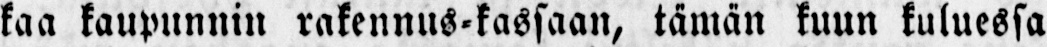kaa kaupunnin rakennus-kassaan, tämän kuun kuluessa
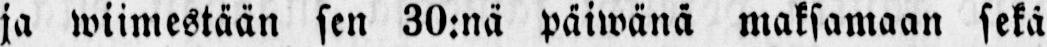ja wiimestään sen 30.nä päiwänä maksamaan sekä
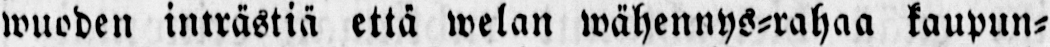wuoden inträstiä että welan wähennys-rahaa kaupun-
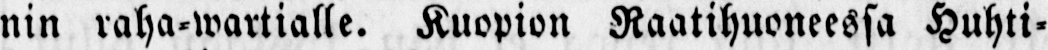nin raha-wartialle. Kuopion Raatihuoneessa Huhti-
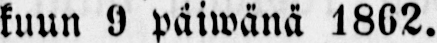kuun 9 päiwänä 1862.
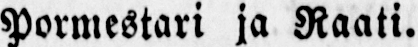Pormestari ja Raati.
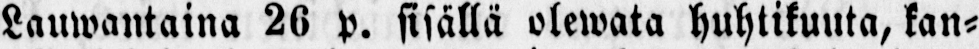Lauwantaina 26 p. sisällä olewata huhtikuuta, kan-
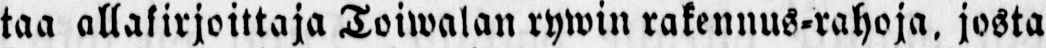taa allakirjoittaja Toiwalan rywin rakennus-rahoja, josta
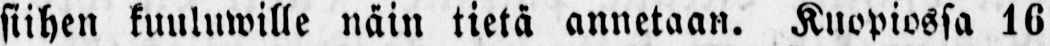siihen kuuluwille näin tietä annetaan. Kuopiossa 16
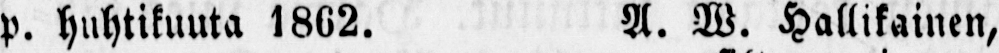p. huhtikuuta 1862. A. W. Hallikainen,
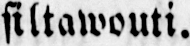siltawouti.
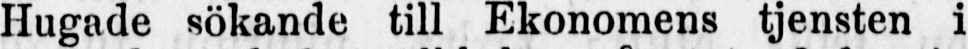Hugade sökande till Ekonomens tjensten i
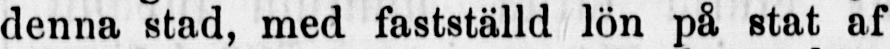denna, stad, med fastställd lön på, stat af fyratio
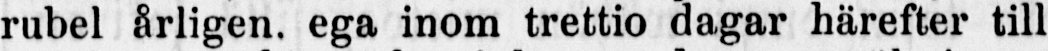rubel årligen. ega inom trettio dagar härefter till
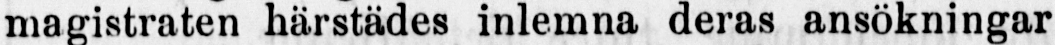magistraten härstädes inlemna deras ansökningar
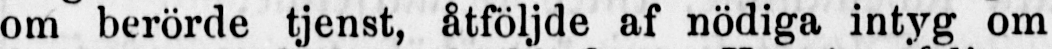om berörde tjenst, åtföljde af nödiga intyg om
